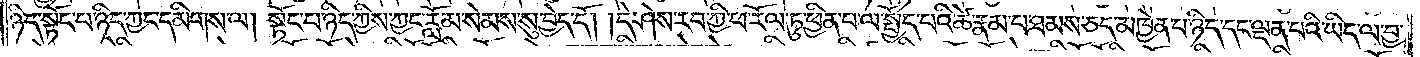ཉིད་སྟོང་པ་ཉིད་ཀྱང་དམིགས་ལ། སྟོང་པ་ཉིད་ཀྱིས་ཀྱང་རློམ་སེམས་སུ་བྱེད་དོ། །དེ་ཤེས་རབ་ཀྱི་ཕ་རོལ་ཏུ་ཕྱིན་པ་ལ་སྤྱོད་པའི་ཚེ་རྣམ་པ་ཐམས་ཅད་མཁྱེན་པ་ཉིད་དང་ལྡན་པའི་ཡིད་ལ་བྱ་
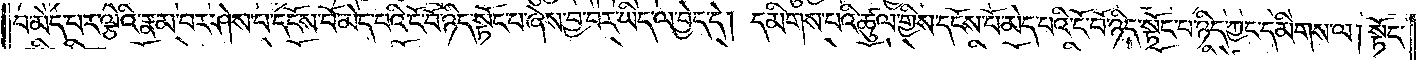བ་མེད་པར་ལྕེའི་རྣམ་པར་ཤེས་པ་དངོས་པོ་མེད་པའི་ངོ་བོ་ཉིད་སྟོང་པ་ཞེས་བྱ་བར་ཡིད་ལ་བྱེད་དེ། དམིགས་པའི་ཚུལ་གྱིས་དངོས་པོ་མེད་པའི་ངོ་བོ་ཉིད་སྟོང་པ་ཉིད་ཀྱང་དམིགས་ལ། སྟོང་
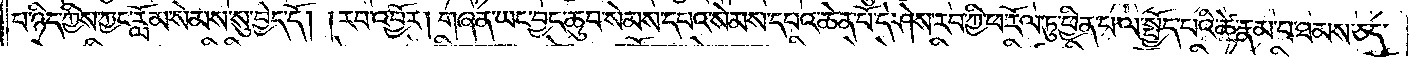པ་ཉིད་ཀྱིས་ཀྱང་རློམ་སེམས་སུ་བྱེད་དོ། །རབ་འབྱོར། གཞན་ཡང་བྱང་ཆུབ་སེམས་དཔའ་སེམས་དཔའ་ཆེན་པོ་དེ་ཤེས་རབ་ཀྱི་ཕ་རོལ་ཏུ་ཕྱིན་པ་ལ་སྤྱོད་པའི་ཚེ་རྣམ་པ་ཐམས་ཅད་
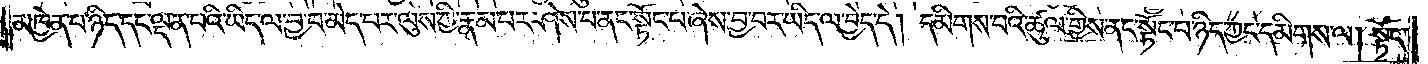མཁྱེན་པ་ཉིད་དང་ལྡན་པའི་ཡིད་ལ་བྱ་བ་མེད་པར་ལུས་ཀྱི་རྣམ་པར་ཤེས་པ་ནང་སྟོང་པ་ཞེས་བྱ་བར་ཡིད་ལ་བྱེད་དེ། དམིགས་པའི་ཚུལ་གྱིས་ནང་སྟོང་པ་ཉིད་ཀྱང་དམིགས་ལ། སྟོང་
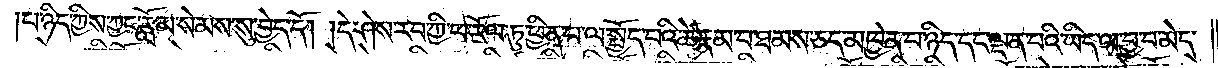པ་ཉིད་ཀྱིས་ཀྱང་རློམ་སེམས་སུ་བྱེད་དོ། །དེ་ཤེས་རབ་ཀྱི་ཕ་རོལ་ཏུ་ཕྱིན་པ་ལ་སྤྱོད་པའི་ཚེ་རྣམ་པ་ཐམས་ཅད་མཁྱེན་པ་ཉིད་དང་ལྡན་པའི་ཡིད་ལ་བྱ་བ་མེད་
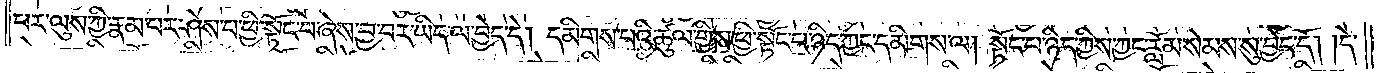པར་ལུས་ཀྱི་རྣམ་པར་ཤེས་པ་ཕྱི་སྟོང་པ་ཞེས་བྱ་བར་ཡིད་ལ་བྱེད་དེ། དམིགས་པའི་ཚུལ་གྱིས་ཕྱི་སྟོང་པ་ཉིད་ཀྱང་དམིགས་ལ། སྟོང་པ་ཉིད་ཀྱིས་ཀྱང་རློམ་སེམས་སུ་བྱེད་དོ། །དེ་
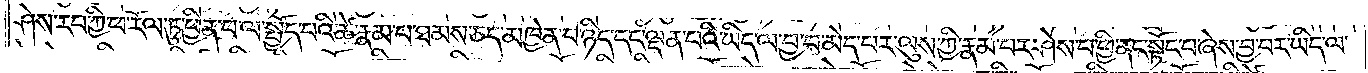ཤེས་རབ་ཀྱི་ཕ་རོལ་ཏུ་ཕྱིན་པ་ལ་སྤྱོད་པའི་ཚེ་རྣམ་པ་ཐམས་ཅད་མཁྱེན་པ་ཉིད་དང་ལྡན་པའི་ཡིད་ལ་བྱ་བ་མེད་པར་ལུས་ཀྱི་རྣམ་པར་ཤེས་པ་ཕྱི་ནང་སྟོང་པ་ཞེས་བྱ་བར་ཡིད་ལ་
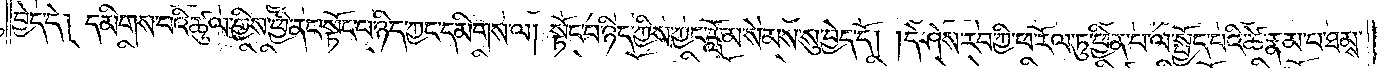བྱེད་དེ། དམིགས་པའི་ཚུལ་གྱིས་ཕྱི་ནང་སྟོང་པ་ཉིད་ཀྱང་དམིགས་ལ། སྟོང་པ་ཉིད་ཀྱིས་ཀྱང་རློམ་སེམས་སུ་བྱེད་དོ། །དེ་ཤེས་རབ་ཀྱི་ཕ་རོལ་ཏུ་ཕྱིན་པ་ལ་སྤྱོད་པའི་ཚེ་རྣམ་པ་ཐམས་
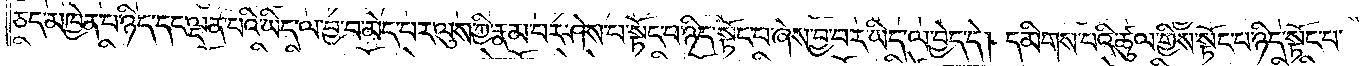ཅད་མཁྱེན་པ་ཉིད་དང་ལྡན་པའི་ཡིད་ལ་བྱ་བ་མེད་པར་ལུས་ཀྱི་རྣམ་པར་ཤེས་པ་སྟོང་པ་ཉིད་སྟོང་པ་ཞེས་བྱ་བར་ཡིད་ལ་བྱེད་དེ། དམིགས་པའི་ཚུལ་གྱིས་སྟོང་པ་ཉིད་སྟོང་པ་
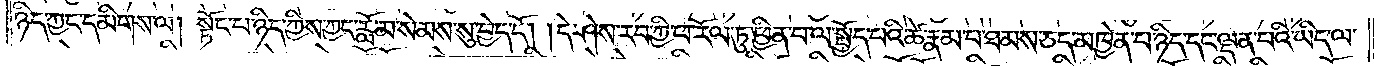ཉིད་ཀྱང་དམིགས་ལ། སྟོང་པ་ཉིད་ཀྱིས་ཀྱང་རློམ་སེམས་སུ་བྱེད་དོ། །དེ་ཤེས་རབ་ཀྱི་ཕ་རོལ་ཏུ་ཕྱིན་པ་ལ་སྤྱོད་པའི་ཚེ་རྣམ་པ་ཐམས་ཅད་མཁྱེན་པ་ཉིད་དང་ལྡན་པའི་ཡིད་ལ་
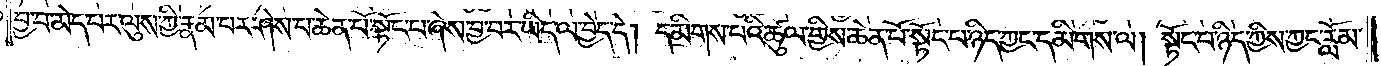བྱ་བ་མེད་པར་ལུས་ཀྱི་རྣམ་པར་ཤེས་པ་ཆེན་པོ་སྟོང་པ་ཞེས་བྱ་བར་ཡིད་ལ་བྱེད་དེ། དམིགས་པའི་ཚུལ་གྱིས་ཆེན་པོ་སྟོང་པ་ཉིད་ཀྱང་དམིགས་ལ། སྟོང་པ་ཉིད་ཀྱིས་ཀྱང་རློམ་
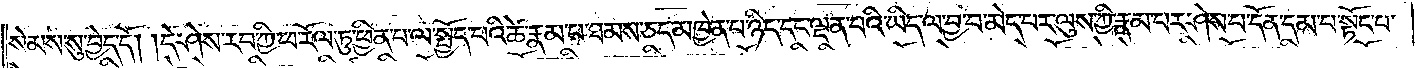སེམས་སུ་བྱེད་དོ། །དེ་ཤེས་རབ་ཀྱི་ཕ་རོལ་ཏུ་ཕྱིན་པ་ལ་སྤྱོད་པའི་ཚེ་རྣམ་པ་ཐམས་ཅད་མཁྱེན་པ་ཉིད་དང་ལྡན་པའི་ཡིད་ལ་བྱ་བ་མེད་པར་ལུས་ཀྱི་རྣམ་པར་ཤེས་པ་དོན་དམ་པ་སྟོང་པ་
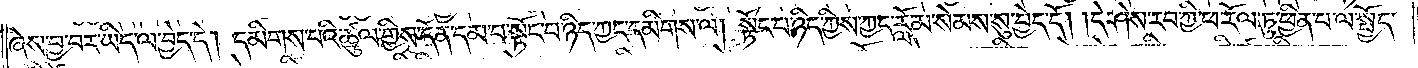ཞེས་བྱ་བར་ཡིད་ལ་བྱེད་དེ། དམིགས་པའི་ཚུལ་གྱིས་དོན་དམ་པ་སྟོང་པ་ཉིད་ཀྱང་དམིགས་ལ། སྟོང་པ་ཉིད་ཀྱིས་ཀྱང་རློམ་སེམས་སུ་བྱེད་དོ། །དེ་ཤེས་རབ་ཀྱི་ཕ་རོལ་ཏུ་ཕྱིན་པ་ལ་སྤྱོད་
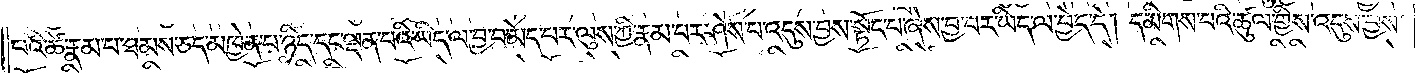པའི་ཚེ་རྣམ་པ་ཐམས་ཅད་མཁྱེན་པ་ཉིད་དང་ལྡན་པའི་ཡིད་ལ་བྱ་བ་མེད་པར་ལུས་ཀྱི་རྣམ་པར་ཤེས་པ་འདུས་བྱས་སྟོང་པ་ཞེས་བྱ་བར་ཡིད་ལ་བྱེད་དེ། དམིགས་པའི་ཚུལ་གྱིས་འདུས་བྱས་
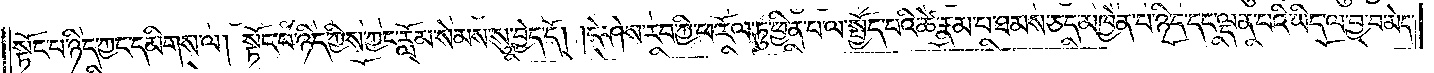སྟོང་པ་ཉིད་ཀྱང་དམིགས་ལ། སྟོང་པ་ཉིད་ཀྱིས་ཀྱང་རློམ་སེམས་སུ་བྱེད་དོ། །དེ་ཤེས་རབ་ཀྱི་ཕ་རོལ་ཏུ་ཕྱིན་པ་ལ་སྤྱོད་པའི་ཚེ་རྣམ་པ་ཐམས་ཅད་མཁྱེན་པ་ཉིད་དང་ལྡན་པའི་ཡིད་ལ་བྱ་བ་མེད་
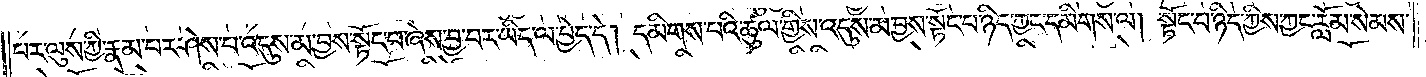པར་ལུས་ཀྱི་རྣམ་པར་ཤེས་པ་འདུས་མ་བྱས་སྟོང་པ་ཞེས་བྱ་བར་ཡིད་ལ་བྱེད་དེ། དམིགས་པའི་ཚུལ་གྱིས་འདུས་མ་བྱས་སྟོང་པ་ཉིད་ཀྱང་དམིགས་ལ། སྟོང་པ་ཉིད་ཀྱིས་ཀྱང་རློམ་སེམས་
